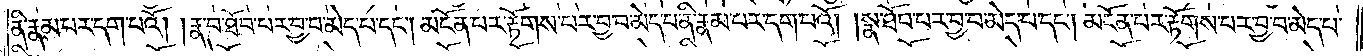ནི་རྣམ་པར་དག་པའོ། །རྣ་བ་ཐོབ་པར་བྱ་བ་མེད་པ་དང༌། མངོན་པར་རྟོགས་པར་བྱ་བ་མེད་པ་ནི་རྣམ་པར་དག་པའོ། །སྣ་ཐོབ་པར་བྱ་བ་མེད་པ་དང༌། མངོན་པར་རྟོགས་པར་བྱ་བ་མེད་པ་
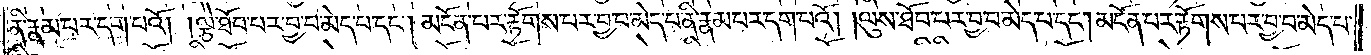ནི་རྣམ་པར་དག་པའོ། །ལྕེ་ཐོབ་པར་བྱ་བ་མེད་པ་དང༌། མངོན་པར་རྟོགས་པར་བྱ་བ་མེད་པ་ནི་རྣམ་པར་དག་པའོ། །ལུས་ཐོབ་པར་བྱ་བ་མེད་པ་དང༌། མངོན་པར་རྟོགས་པར་བྱ་བ་མེད་པ་
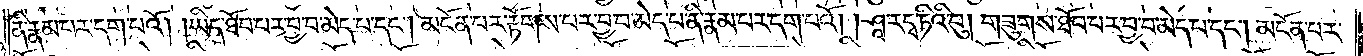ནི་རྣམ་པར་དག་པའོ། །ཡིད་ཐོབ་པར་བྱ་བ་མེད་པ་དང༌། མངོན་པར་རྟོགས་པར་བྱ་བ་མེད་པ་ནི་རྣམ་པར་དག་པའོ། །ཤཱ་རདྭ་ཏིའི་བུ། གཟུགས་ཐོབ་པར་བྱ་བ་མེད་པ་དང༌། མངོན་པར་
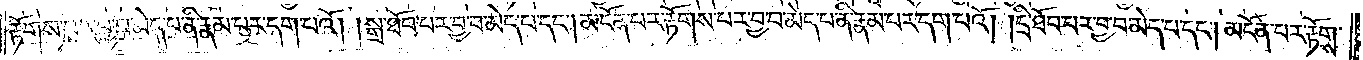རྟོགས་པར་བྱ་བ་མེད་པ་ནི་རྣམ་པར་དག་པའོ། །སྒྲ་ཐོབ་པར་བྱ་བ་མེད་པ་དང༌། མངོན་པར་རྟོགས་པར་བྱ་བ་མེད་པ་ནི་རྣམ་པར་དག་པའོ། །དྲི་ཐོབ་པར་བྱ་བ་མེད་པ་དང༌། མངོན་པར་རྟོགས་
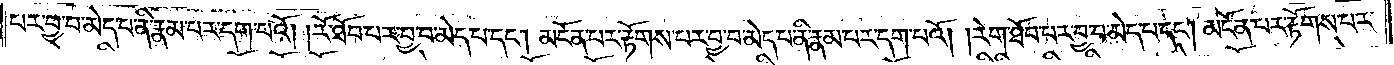པར་བྱ་བ་མེད་པ་ནི་རྣམ་པར་དག་པའོ། །རོ་ཐོབ་པར་བྱ་བ་མེད་པ་དང༌། མངོན་པར་རྟོགས་པར་བྱ་བ་མེད་པ་ནི་རྣམ་པར་དག་པའོ། །རེག་ཐོབ་པར་བྱ་བ་མེད་པ་དང༌། མངོན་པར་རྟོགས་པར་
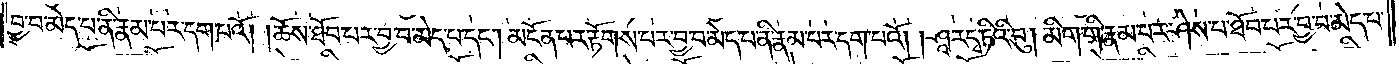བྱ་བ་མེད་པ་ནི་རྣམ་པར་དག་པའོ། །ཆོས་ཐོབ་པར་བྱ་བ་མེད་པ་དང༌། མངོན་པར་རྟོགས་པར་བྱ་བ་མེད་པ་ནི་རྣམ་པར་དག་པའོ། །ཤཱ་རདྭ་ཏིའི་བུ། མིག་གི་རྣམ་པར་ཤེས་པ་ཐོབ་པར་བྱ་བ་མེད་པ་
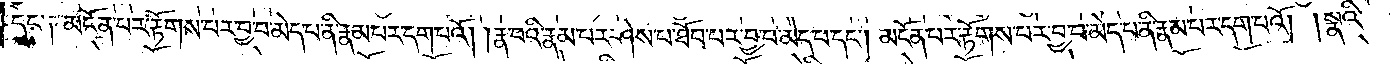དང་༑ མངོན་པར་རྟོགས་པར་བྱ་བ་མེད་པ་ནི་རྣམ་པར་དག་པའོ། །རྣ་བའི་རྣམ་པར་ཤེས་པ་ཐོབ་པར་བྱ་བ་མེད་པ་དང༌། མངོན་པར་རྟོགས་པར་བྱ་བ་མེད་པ་ནི་རྣམ་པར་དག་པའོ། །སྣའི་
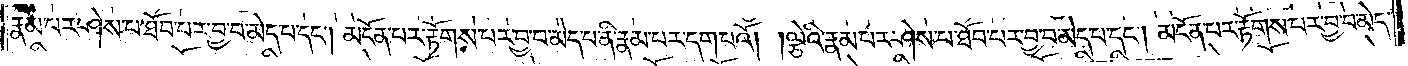རྣམ་པར་ཤེས་པ་ཐོབ་པར་བྱ་བ་མེད་པ་དང༌། མངོན་པར་རྟོགས་པར་བྱ་བ་མེད་པ་ནི་རྣམ་པར་དག་པའོ། །ལྕེའི་རྣམ་པར་ཤེས་པ་ཐོབ་པར་བྱ་བ་མེད་པ་དང༌། མངོན་པར་རྟོགས་པར་བྱ་བ་མེད་
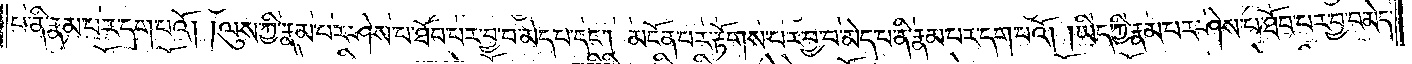པ་ནི་རྣམ་པར་དག་པའོ། །ལུས་ཀྱི་རྣམ་པར་ཤེས་པ་ཐོབ་པར་བྱ་བ་མེད་པ་དང༌། མངོན་པར་རྟོགས་པར་བྱ་བ་མེད་པ་ནི་རྣམ་པར་དག་པའོ། །ཡིད་ཀྱི་རྣམ་པར་ཤེས་པ་ཐོབ་པར་བྱ་བ་མེད་
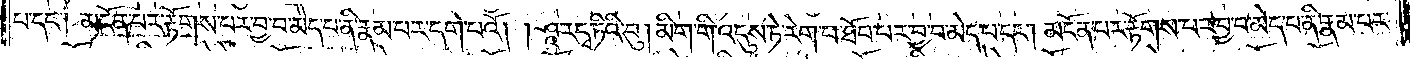པ་དང༌། མངོན་པར་རྟོགས་པར་བྱ་བ་མེད་པ་ནི་རྣམ་པར་དག་པའོ། །ཤཱ་ར་དྭ་ཏིའི་བུ། མིག་གི་འདུས་ཏེ་རེག་པ་ཐོབ་པར་བྱ་བ་མེད་པ་དང༌། མངོན་པར་རྟོགས་པར་བྱ་བ་མེད་པ་ནི་རྣམ་པར་
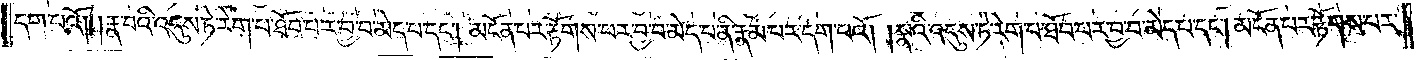དག་པའོ། །རྣ་བའི་འདུས་ཏེ་རེག་པ་ཐོབ་པར་བྱ་བ་མེད་པ་དང༌། མངོན་པར་རྟོགས་པར་བྱ་བ་མེད་པ་ནི་རྣམ་པར་དག་པའོ། །སྣའི་འདུས་ཏེ་རེག་པ་ཐོབ་པར་བྱ་བ་མེད་པ་དང༌། མངོན་པར་རྟོགས་པར་
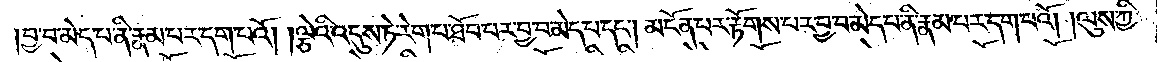བྱ་བ་མེད་པ་ནི་རྣམ་པར་དག་པའོ། །ལྕེའི་འདུས་ཏེ་རེག་པ་ཐོབ་པར་བྱ་བ་མེད་པ་དང༌། མངོན་པར་རྟོགས་པར་བྱ་བ་མེད་པ་ནི་རྣམ་པར་དག་པའོ། །ལུས་ཀྱི་
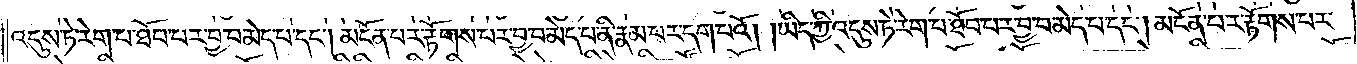འདུས་ཏེ་རེག་པ་ཐོབ་པར་བྱ་བ་མེད་པ་དང༌། མངོན་པར་རྟོགས་པར་བྱ་བ་མེད་པ་ནི་རྣམ་པར་དག་པའོ། །ཡིད་ཀྱི་འདུས་ཏེ་རེག་པ་ཐོབ་པར་བྱ་བ་མེད་པ་དང༌། མངོན་པར་རྟོགས་པར་
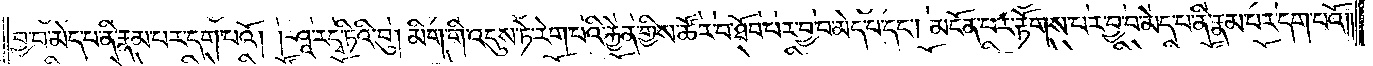བྱ་བ་མེད་པ་ནི་རྣམ་པར་དག་པའོ། །ཤཱ་ར་དྭ་ཏིའི་བུ། མིག་གི་འདུས་ཏེ་རེག་པའི་རྐྱེན་གྱིས་ཚོར་བ་ཐོབ་པར་བྱ་བ་མེད་པ་དང༌། མངོན་པར་རྟོགས་པར་བྱ་བ་མེད་པ་ནི་རྣམ་པར་དག་པའོ། །
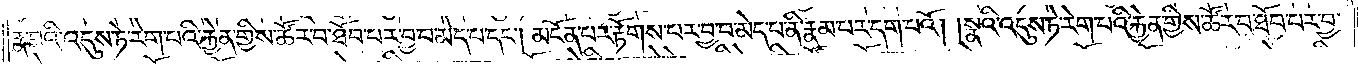རྣ་བའི་འདུས་ཏེ་རེག་པའི་རྐྱེན་གྱིས་ཚོར་བ་ཐོབ་པར་བྱ་བ་མེད་པ་དང༌། མངོན་པར་རྟོགས་པར་བྱ་བ་མེད་པ་ནི་རྣམ་པར་དག་པའོ། །སྣའི་འདུས་ཏེ་རེག་པའི་རྐྱེན་གྱིས་ཚོར་བ་ཐོབ་པར་བྱ་
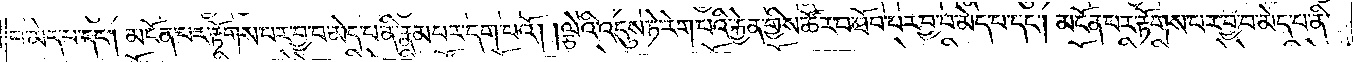བ་མེད་པ་དང༌། མངོན་པར་རྟོགས་པར་བྱ་བ་མེད་པ་ནི་རྣམ་པར་དག་པའོ། །ལྕེའི་འདུས་ཏེ་རེག་པའི་རྐྱེན་གྱིས་ཚོར་བ་ཐོབ་པར་བྱ་བ་མེད་པ་དང༌། མངོན་པར་རྟོགས་པར་བྱ་བ་མེད་པ་ནི་
